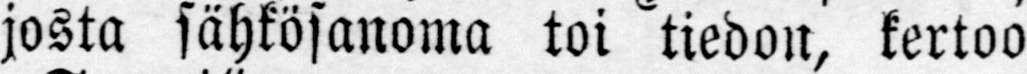josta sähkösanoma toi tiedon, kertoo
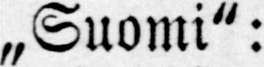„Suomi":
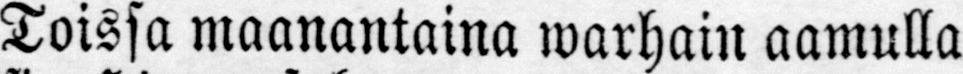Toissa maanantaina warhain aamulla
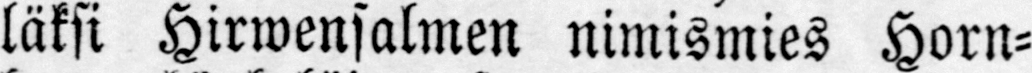läksi Hirwensalmen nimismies Horn-
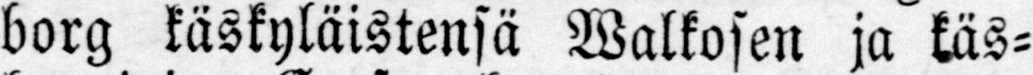borg käskyläistensä Walkosen ja käs-
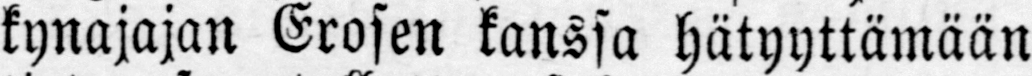kynajajan Erosen kanssa hätyyttämään
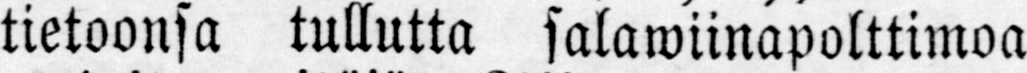tietoonsa tullutta salawiinapolttimoa
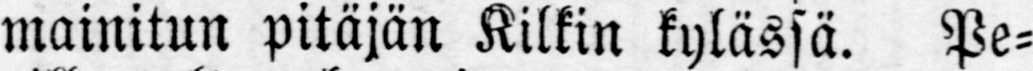mainitun pitäjän Kilkin kylässä. Pe-
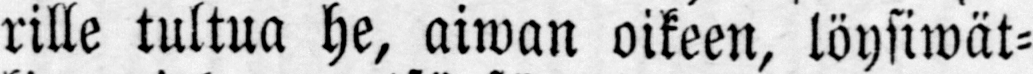rille tultua he, aiwan oikeen, löysiwät-
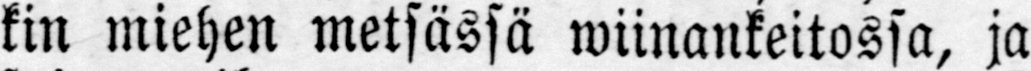kin miehen metsässä wiinankeitossa, ja
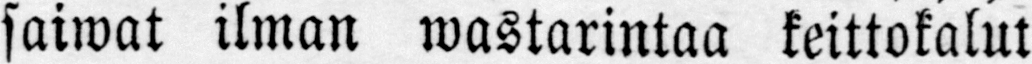saiwat ilman wastarintaa keittokalut
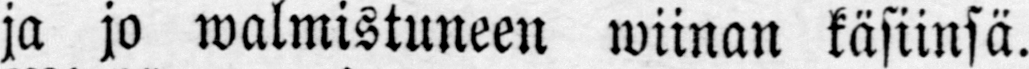ja jo wiinan käsiinsä.
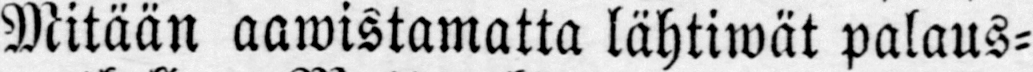Mitään aawistamatta lähtiwät palaus-
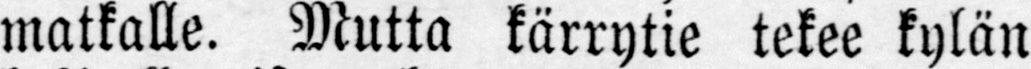matkalle. Mutta kärrytie tekee kylän
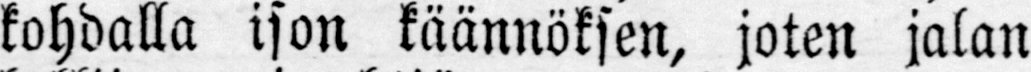kohdalla ison käännöksen, joten jalan
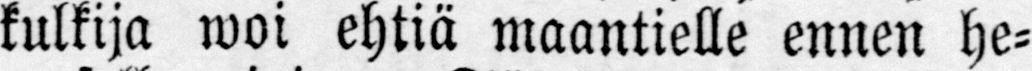kulkija woi ehtiä maantielle ennen he-
